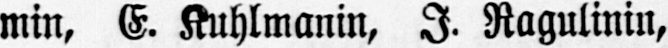min, E. Kuhlmanin, I. Ragulinin,
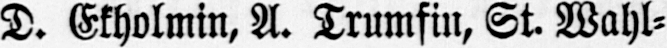D. Ekholmin, A. Trumfin, St. Wahl-
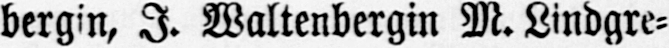bergin, I. Waltenbergin M. Lindgre-
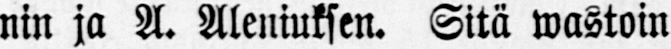nin ja A. Aleniuksen. Sitä wastoin
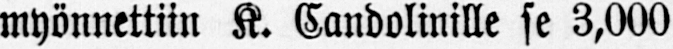myönnettiin K. Candolinille se 3,000
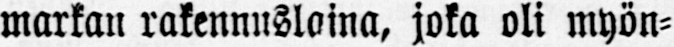markan rakennuslaina, joka oli myön-
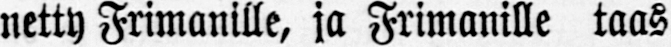netty Frimanille, ja Frimanille taas
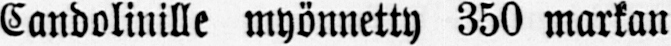Candolinille myönnetty 350 markan
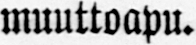muuttoapu.
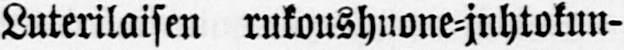Luterilaisen rukoushuone-jnhtokun-
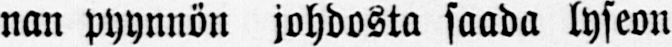nan pyynnön johdosta saada lyseon
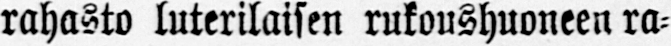rahasto luterilaisen rukoushuoneen ra-
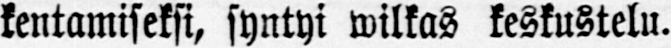kentamiseksi, syntyi wilkas keskustelu.
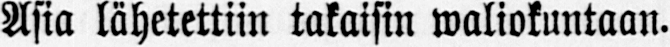Asia lähetettiin takaisin waliokuntaan.
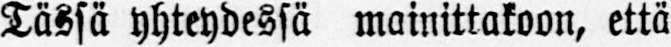Tässä yhteydessä mainittakoon, että
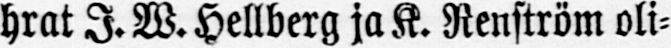hrat J.W. Hellberg ja K. Renström oli-
